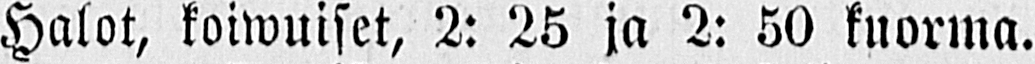Halot, koiwuiset, 2: 25 ja 2: 50 kuorma.
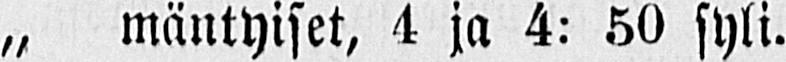„ mäntyiset, 4 ja 4: 50 syli.
